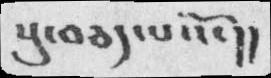སུ་བཅད་པའོ་།།
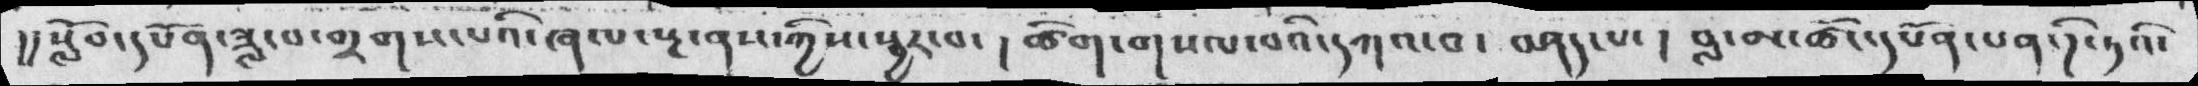།།སློབ་དཔོན་ཟླ་བ་གྲགས་པའི་ཞལ་སྔ་ནས་ཀྱིས་སྦྱར་བ་། ཚིག་གསལ་བའི་དཀའ་བ་ བཤད་པ་།  བླ་མ་ཚོང་དཔོན་དི་ཏའོ་
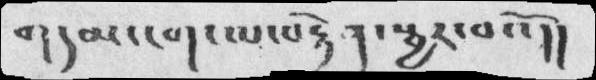གདམ་ངག་ལ་བརྟེན་སྦྱར་བའོ་།།
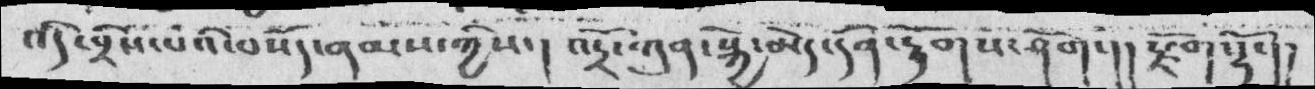འདི་བྲིས་པའི་བསོད་ནམས་ཀྱིས་། འདྲོ་ཀུན་སྐྱེ་མེད་དོན་རྟོགས་ཤོག་།།རྫོགསྷོ་།།
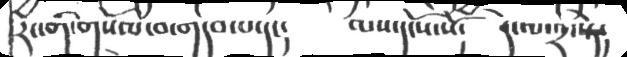རང་གི་གསོལ་བ་གདབ་པ་དང། ལས་དངོས་སོ། དེ་ལ་༢་སྟེ།
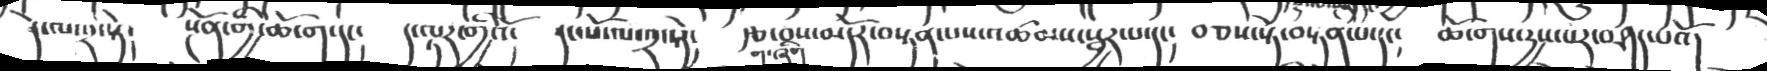དེ་ལ་༢་སྟེ།    སྔོན་གྱི་ཆོ་ག་དང་།   ད་ལྟར་གྱིའོ་   དང་པོ་ལ་༢་སྟེ།   རྩ་བས་མདོར་བསྟན་པས་འཚམས་སྦྱར་པ་དང་། བཅས་སྟེ་བསྟན་པ་དང་།   ཆོ་གས་དྱས་པར་བཤད་པའོ།
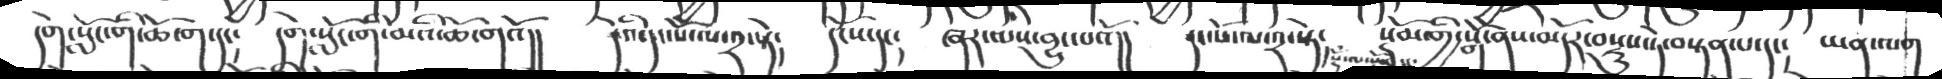དགེ་སློང་གི་ཆོ་ག་དང།  དགེ་སློང་གི་མའི་ཆོ་གའོ།།    དེའི་དང་ལ་༢་སྟེ།   དངོས་དང།  ཞར་ལས་བྱུང་པའོ།།   དང་པོ་ལ་༢སྟེ་། སྡོཾ་ལ་སོག།། སྡོམ་གྱི་སྒོ་ནས་མདོར་བསྡུས་ཏར་བསྟན་པ་དང་ ། ཡན་ལག་
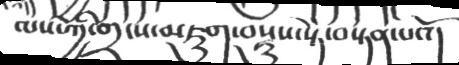ལས་ཀྱི་གྲ་ས་མཇུག་བསྡུས་ཏེ་བསྟན་པའོ།
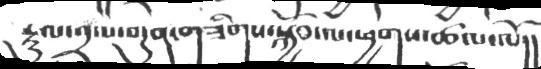རྡུལ་བྲལ་བདུན་གཟིགས་སྐྱོབ་ལ་ཕྱགས་ཚལ་ལོ།།
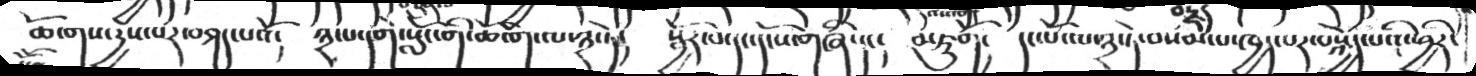ཆོ་གས་རྱས་པར་བཤད་པའོ།   ༣་པ་དགེ་སློང་གི་ཆོ་ག་ལ་༣་ཏེ།   སྦྱོར་བ་དང་དངོས་གཞི་དང།  མཇུགོ།   དང་པོ་ལ་༣་ཏེ་བསམ་པ་ཁྱད་པར་བསྐྱེད་པའི་ཕྱིར་
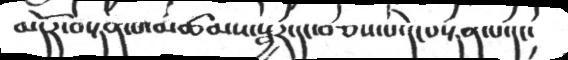མདོར་བསྟན་པ་མཚམས་སྦྱར་དང་བཅས་པ་དེ་བསྟན་པ་དང།
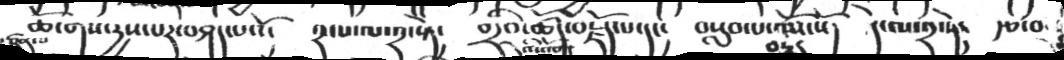ཆོ་གས་རྱས་པར་བཤད་པའོ།    ༢་པ་ལ་༢་སྟེ་    གྲའི་ཚད་བརྗོད་པ་དང།  བསླབ་པ་འོས་སོ།   དེ་ལ་༢་ཏེ་ རྩ་བ་
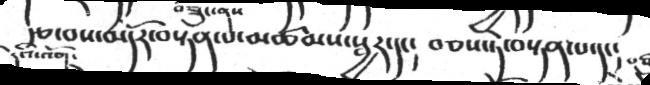རྩ་བས་མདོར་བསྟན་པ་མཚམས་སྦྱར་དང།   བཅས་ཏེ་བསྟན་པ་དང།
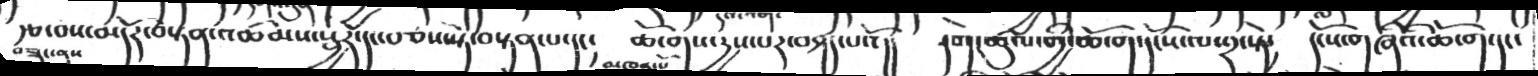རྩ་བས་མདོར་བསྟན་འཚམས་སྦྱར་དང་བཅས་སྟེ་བསྟན་པ་དང།   ཆོ་གས་རྱས་པར་བཤད་པའོ།།    དགེ་ཚུལ་གྱི་ཆོ་ག་དངོས་ལ་༢་སྟེ་     དངོས་གཞིའི་ཆོ་ག་དང་
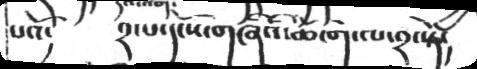པའོ་       ༢་པ་དངོས་གཞིའི་ཆོ་ག་ལ་༢་སྟེ།
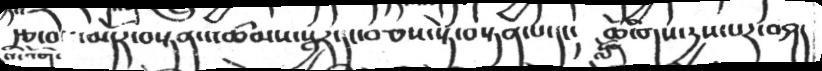རྩ་བའི་འོག་མདོར་བསྟན་འཚམས་སྦྱར་དང་བཅས་སྟེ་བསྟན་པ་དང།   ཆོ་གིས་རྱས་པར་བཤད་
